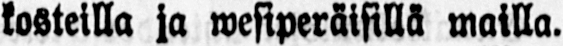kosteilla ja wesiperäisillä mailla.
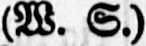(W. S.)
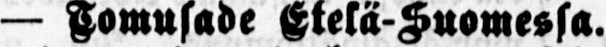— Tomusade Etelä-Suomessa.
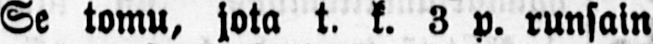Se tomu, jota t. k. 3 p. runsain
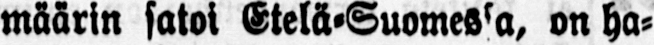määrin satoi Etelä-Suomessa, on ha-
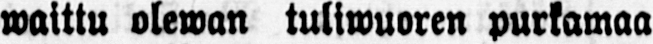waittu olewan tuliwuoren purkamaa
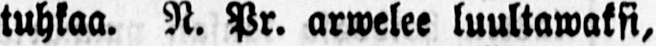tuhkaa. N. Pr. arwelee luultawaksi,
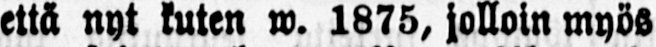että nyt kuten w. 1875, jolloin myös
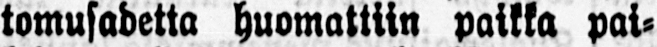tomusadetta huomattiin paikka pai-
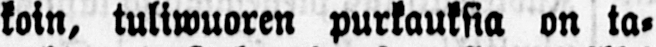koin, tuliwuoren purkauksia on ta-
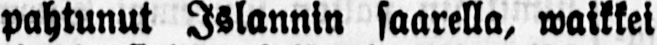pahtunut Islannin saarella, waikkei
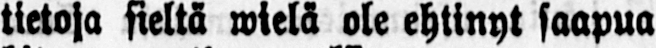tietoja sieltä wielä ole ehtinyt saapua
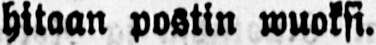hitaan postin wuoksi.
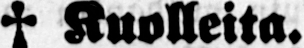† Kuolleita.
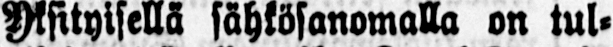Yksityisellä sähkösanomalla on tul-
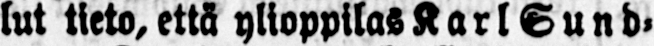lut tieto, että ylioppilas Karl Sund-
